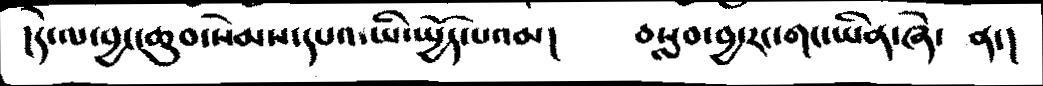།དེ་ལ་བྱང་ཆུབ་སེམས་དཔའ་ཡི་སྤྱོད་པའམ།  བསླབ་བྱ་རང་གང་ཡིན་ཞེ་  ན་།
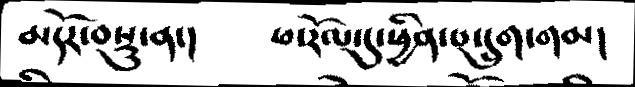མདོར་བསྡུ་ན་།   ཕ་རོལ་དུ་ཕྱིན་པ་དྲུག་གམ།
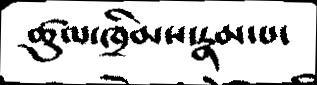ཚུལ་ཁྲིམས་རྣམ་པ་
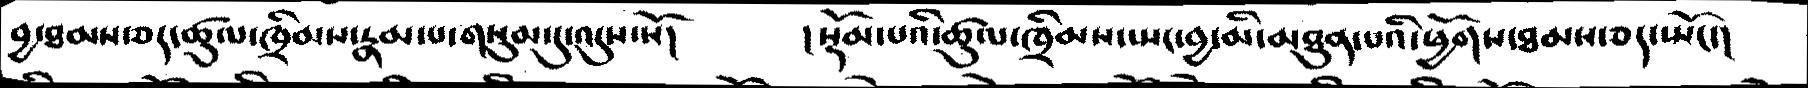བྱ་ཐམས་ཅད་ཚུལ་ཁྲིམས་རྣམ་པ་གསུམ་དུ་འདུས་སོ།    །སྡོམ་པའི་ཚུལ་ཁྲིམས་སྤང་བྱ་མི་མཐུན་པའི་ཕྱོགས་ཐམས་ཅད་སྤོང་།
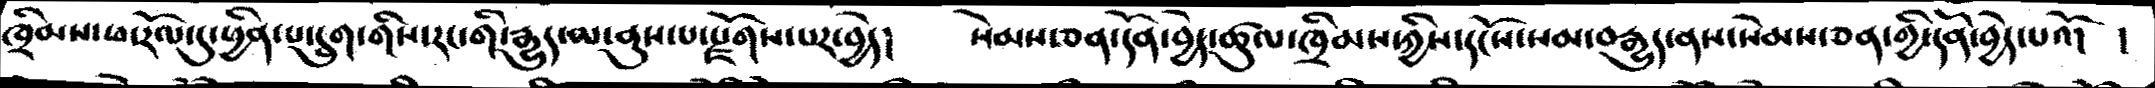ཁྲིམས་ཕ་རོལ་དུ་ཕྱིན་པ་དྲུག་གིས་རང་གི་རྒྱུད་མ་ནུས་པ་རྫོགས་པར་བྱེད།    སེམས་ཅན་དོན་བྱེད་ཚུལ་ཁྲིམས་ཀྱིས་དངོས་སམ་བརྒྱུད་ནས་སེམས་ཅན་གྱི་དོན་བྱེད་པའོ།  །
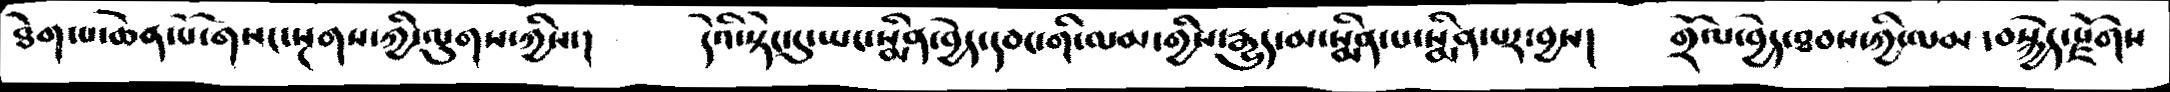ཐེག་པ་ཆེན་པོ་གསང་སྔགས་ཀྱི་ལུགས་ཀྱིས་།   དེའི་སྟེང་དུ་ཡང་སྨིན་བྱེད་དབང་གི་ལམ་གྱིས་རྒྱུད་མ་སྨིན་པ་སྨིན་པར་བྱས་།   གྲོལ་བྱེད་ཐབས་ཀྱི ་ལམ་བསྐྱེད་རྫོགས
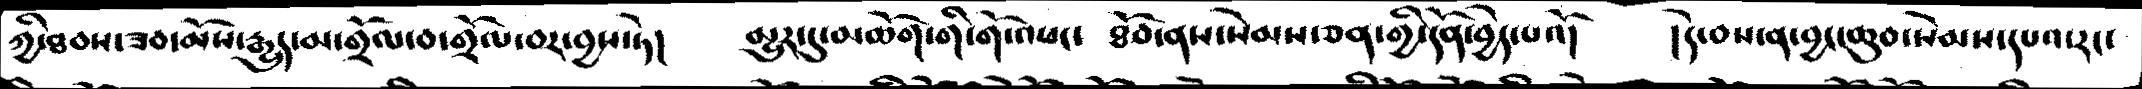ཀྱི་ཐབས་ཟབ་མོས་རྒྱུད་མ་གྲོལ་བ་གྲོལ་བར་བྱས་ཏེ་།   མྱུར་དུ་མཆོག་གི་གོ་འཕང་ ཐོབ་ནས་སེམས་ཅན་གྱི་དོན་བྱེད་པའོ་།   །དེ་བས་ན་བྱང་ཆུབ་སེམས་དཔའ་རང་
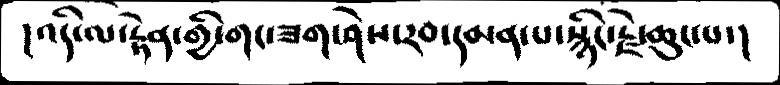།འདི་ལ་རྟེན་གྱི་གང་ཟག་ཤེས་རབ་དམན་པ་སྙིང་རྗེ་ཆུང་པ་།
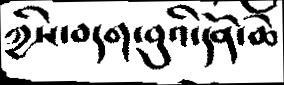ཀྱིས་བདག་བུའི་དོན་ཆེ
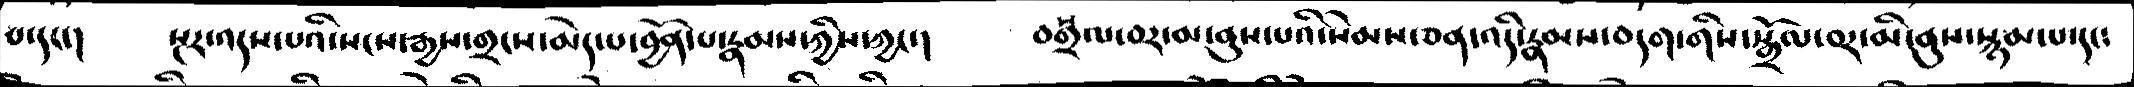པ་དང་།    སྔར་འདས་པའི་སངས་རྒྱས་གྲངས་མེད་པ་བྱོན་པ་རྣམས་ཀྱིས་ཀྱང་།    བསྒྲལ་བར་མ་ནུས་པའི་སེམས་ཅན་འདི་རྣམས་བདག་གིས་སྒྲོལ་བར་མི་ནུས་སྙམ་པ་དང༴
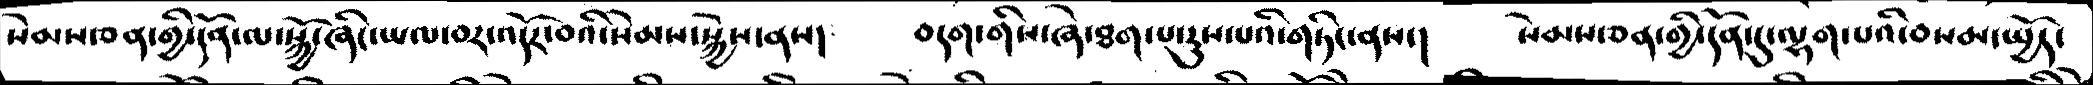སེམས་ཅན་གྱི་དོན་ལ་སྐྱོ་ཞིང་ཡལ་བར་འདོར་བའི་སེམས་སྐྱེས་ནས།   བདག་གིས་ཞེ་ཐག་པ་རུས་པའི་གཏིང་ནས་།   སེམས་ཅན་གྱི་དོན་དུ་ལྷག་པའི་བསམ་སྤྱོད་
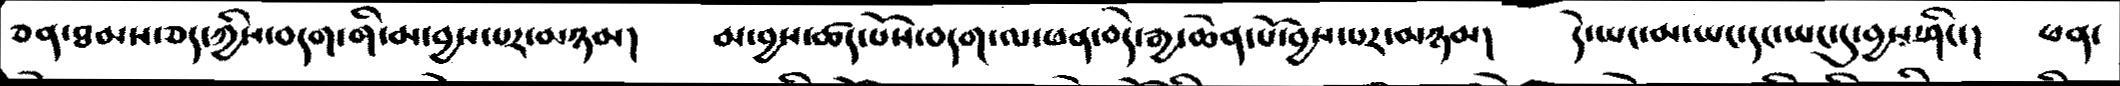ཅན་ཐམས་ཅད་ཀྱིས་བདག་གི་མ་བྱས་པར་མཉམ།   མ་བྱས་ཚད་པོས་བདག་ལ་ཕན་བདེ་རྒྱ་ཆེན་པོ་བྱས་པར་མཉམ།   དེ་ཡང་མ་ཡང་དང་ཡང་དུ་བྱས་ཤིང་།   ཕན་
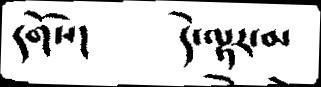དགོས།                  དེ་ལྟར་མ
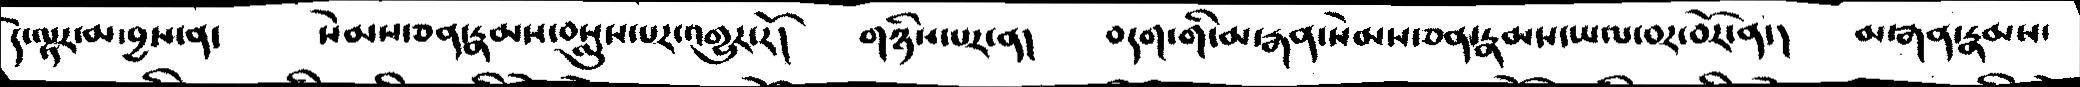དེ་ལྟར་མ་བྱས་ན་   སེམས་ཅན་རྣམས་བསླུས་པར་འགྱུར་རོ།   གཉིས་པར་ན།   བདག་གི་མ་རྒན་སེམས་ཅན་རྣམས་ཡལ་བར་བོར་ན་།   མ་རྒན་རྣམས་
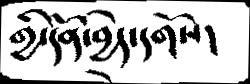གྱི་དོན་བྱེད་དགོས།
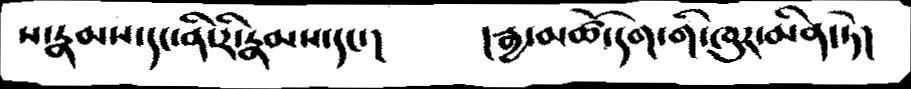ས་རྣམས་དང་ནི་རི་རྣམས་དང་།   །རྒྱ་མཚོ་དག་གི་ཁུར་མིན་ཏེ།
